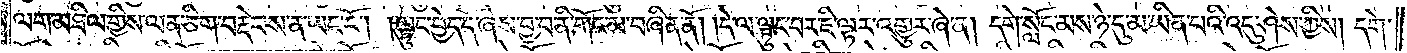ལག་མཐིལ་གྱིས་ལན་ཅིག་བརྡེབས་ན་ཡང་ངོ༌། །ལྟུང་བྱེད་དོ་ཞེས་བྱ་བ་ནི་གོང་མ་བཞིན་ནོ། །དེ་ལ་ལྟུང་བར་ཇི་ལྟར་འགྱུར་ཞེ་ན། དགེ་སློང་མས་ཉེ་དུ་མ་ཡིན་པའི་འདུ་ཤེས་ཀྱིས། དགེ་
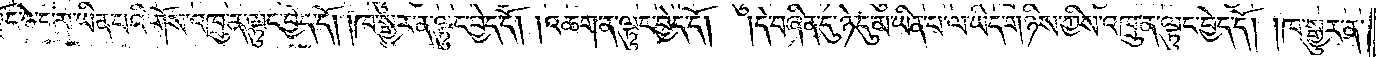སློང་ཉེ་དུ་མ་ཡིན་པའི་གོས་འཁྲུ་ན་ལྟུང་བྱེད་དོ། །ཁ་སྒྱུར་ན་ལྟུང་བྱེད་དོ། །འཆག་ན་ལྟུང་བྱེད་དོ། །དེ་བཞིན་དུ་ཉེ་དུ་མ་ཡིན་པ་ལ་ཡིད་གཉིས་ཀྱིས་འཁྲུ་ན་ལྟུང་བྱེད་དོ། །ཁ་སྒྱུར་ན་
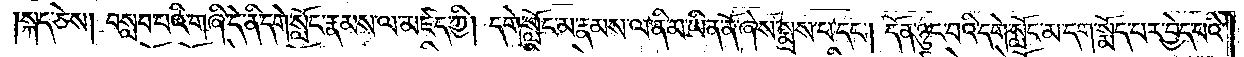སྐད་ཅེས། བསླབ་པའི་གཞི་དེ་ནི་དགེ་སློང་རྣམས་ལ་མཛད་ཀྱི། དགེ་སློང་མ་རྣམས་ལ་ནི་མ་ཡིན་ནོ་ཞེས་སྨྲས་པ་དང༌། དོན་ཉུང་བའི་དགེ་སློང་མ་དག་སྨོད་པར་བྱེད་པའི་
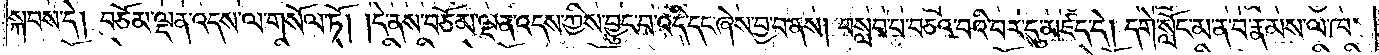སྐབས་དེ། བཅོམ་ལྡན་འདས་ལ་གསོལ་ཏོ། །དེ་ནས་བཅོམ་ལྡན་འདས་ཀྱིས་བྱུང་བ་འདི་དང་ཞེས་བྱ་བ་ནས། བསླབ་པ་བཅའ་བའི་བར་དུ་མཛད་དེ། དགེ་སློང་མ་ན་བ་རྣམས་ལ་ཁ་
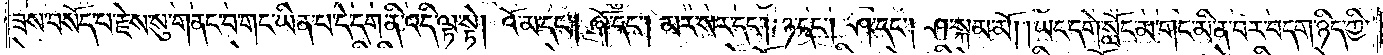ཟས་བསོད་པ་རྗེས་སུ་གནང་བ་གང་ཡིན་པ་དེ་དག་ནི་འདི་ལྟ་སྟེ། འོ་མ་དང༌། ཞོ་དང༌། མར་སར་དང༌། ཉ་དང༌། ཤ་དང༌། ཤ་སྐམ་མོ། །ཡང་དགེ་སློང་མ་གང་མི་ན་པར་བདག་ཉིད་ཀྱི་
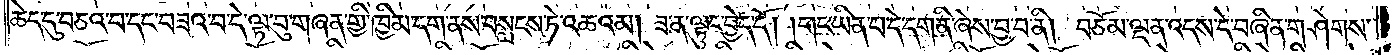ཆེད་དུ་བཅའ་བ་དང་བཟའ་བ་དེ་ལྟ་བུ་གཞན་གྱི་ཁྱིམ་དག་ནས་བསླངས་ཏེ་འཆའམ། ཟ་ན་ལྟུང་བྱེད་དོ། །གང་ཡིན་པ་དེ་དག་ནི་ཞེས་བྱ་བ་ནི། བཅོམ་ལྡན་འདས་དེ་བཞིན་གཤེགས་
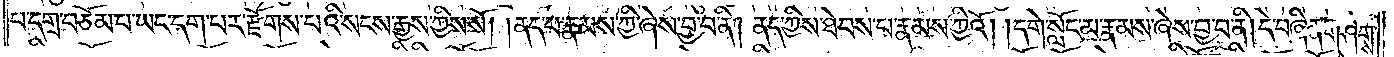པ་དགྲ་བཅོམ་པ་ཡང་དག་པར་རྫོགས་པའི་སངས་རྒྱས་ཀྱིས་སོ། །ནད་པ་རྣམས་ཀྱི་ཞེས་བྱ་བ་ནི། ནད་ཀྱིས་ཐེབས་པ་རྣམས་ཀྱིའོ། །དགེ་སློང་མ་རྣམས་ཞེས་བྱ་བ་ནི། དེ་བཞིན་གཤེགས་
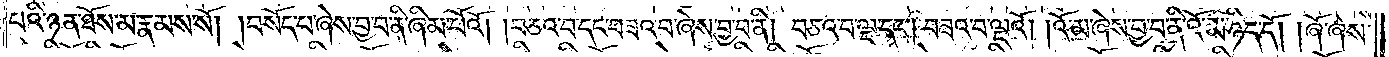པའི་ཉན་ཐོས་མ་རྣམས་སོ། །བསོད་པ་ཞེས་བྱ་བ་ནི་ཞིམ་པོའོ། །བཅའ་བ་དང་བཟའ་བ་ཞེས་བྱ་བ་ནི། བཅའ་བ་ལྔ་དང༌། བཟའ་བ་ལྔའོ། །འོ་མ་ཞེས་བྱ་བ་ནི་འོ་མ་ཉིད་དོ། །ཞོ་ཞེས་
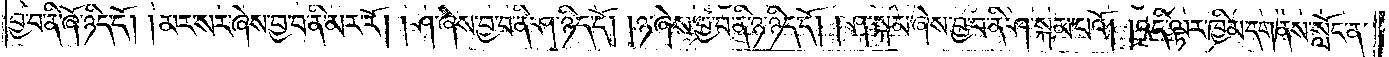བྱ་བ་ནི་ཞོ་ཉིད་དོ། །མར་སར་ཞེས་བྱ་བ་ནི་མར་རོ། །ཤ་ཞེས་བྱ་བ་ནི་ཤ་ཉིད་དོ། །ཉ་ཞེས་བྱ་བ་ནི་ཉ་ཉིད་དོ། །ཤ་སྐམ་ཞེས་བྱ་བ་ནི་ཤ་སྐམ་པའོ། །འདི་ལྟར་ཁྱིམ་དག་ནས་སློང་ན་
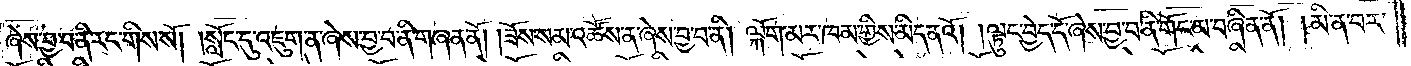ཞེས་བྱ་བ་ནི་རང་གིས་སོ། །སློང་དུ་འཇུག་ན་ཞེས་བྱ་བ་ནི་གཞན་ནོ། །ཟོས་སམ་འཆོས་ན་ཞེས་བྱ་བ་ནི། ལྐོག་མར་ཁམ་གྱིས་མིད་ནའོ། །ལྟུང་བྱེད་དོ་ཞེས་བྱ་བ་ནི་གོང་མ་བཞིན་ནོ། །མི་ན་བར་
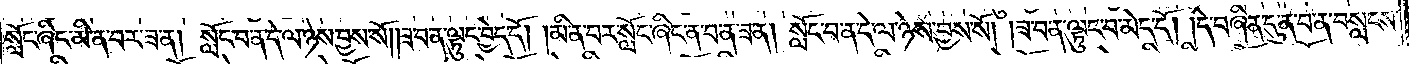སློང་ཞིང་མི་ན་བར་ཟ་ན། སློང་བ་ན་དེ་ལ་ཉེས་བྱས་སོ། །ཟ་བ་ན་ལྟུང་བྱེད་དོ། །མི་ན་བར་སློང་ཞིང་ན་བ་ན་ཟ་ན། སློང་བ་ན་དེ་ལ་ཉེས་བྱས་སོ། །ཟ་བ་ན་ལྟུང་བ་མེད་དོ། །དེ་བཞིན་དུ་ན་བ་ན་བསླངས་
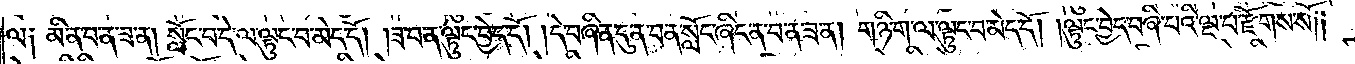ལ༑ མི་ན་བ་ན་ཟ་ན། སློང་བ་དེ་ལ་ལྟུང་བ་མེད་དོ། །ཟ་བ་ན་ལྟུང་བྱེད་དོ། །དེ་བཞིན་དུ་ན་བ་ན་སློང་ཞིང་ན་བ་ན་ཟ་ན། གཉི་ག་ལ་ལྟུང་བ་མེད་དོ། །ལྟུང་བྱེད་བཞི་པའི་ལྔ་པ་རྫོགས་སོ༎
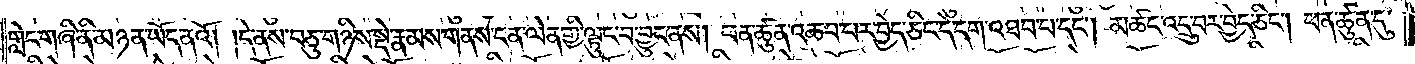གླེང་གཞི་ནི་མཉན་ཡོད་ནའོ། །དེ་ནས་བཅུ་གཉིས་སྡེ་རྣམས་གནས་ངན་ལེན་གྱི་ལྟུང་བ་བྱུང་ནས། ཕན་ཚུན་འཆབ་པར་བྱེད་ཅིང་དེ་དག་འཐབ་པ་དང༌། མཚང་འདྲུ་བར་བྱེད་ཅིང༌། ཕན་ཚུན་དུ་
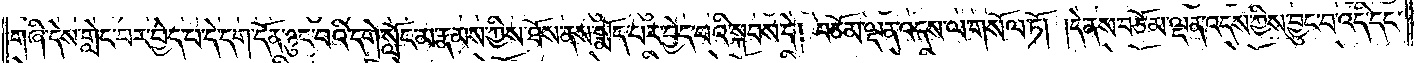གཞི་དེས་གླེང་བར་བྱེད་པ་དེ་དག་དོན་ཉུང་བའི་དགེ་སློང་མ་རྣམས་ཀྱིས་ཐོས་ནས་སྨོད་པར་བྱེད་པའི་སྐབས་དེ། བཅོམ་ལྡན་འདས་ལ་གསོལ་ཏོ། །དེ་ནས་བཅོམ་ལྡན་འདས་ཀྱིས་བྱུང་བ་འདི་དང་
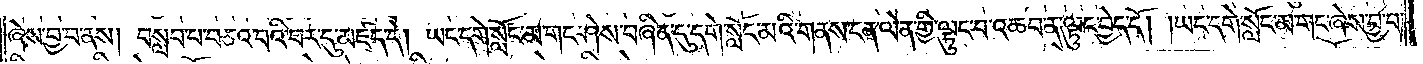ཞེས་བྱ་བ་ནས། བསླབ་པ་བཅའ་བའི་བར་དུ་མཛད་དེ། ཡང་དགེ་སློང་མ་གང་ཤེས་བཞིན་དུ་དགེ་སློང་མའི་གནས་ངན་ལེན་གྱི་ལྟུང་བ་འཆབ་ན་ལྟུང་བྱེད་དོ། །ཡང་དགེ་སློང་མ་གང་ཞེས་བྱ་བ་
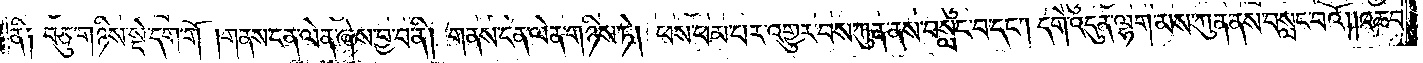ནི༑ བཅུ་གཉིས་སྡེ་དག་གོ །གནས་ངན་ལེན་ཞེས་བྱ་བ་ནི། གནས་ངན་ལེན་གཉིས་ཏེ། ཕས་ཕམ་པར་འགྱུར་བས་ཀུན་ནས་བསླང་བ་དང༌། དགེ་འདུན་ལྷག་མས་ཀུན་ནས་བསླང་བའོ། །འཆབ་
